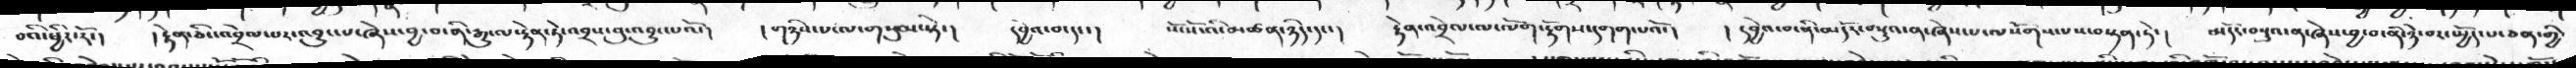བའི་ཕྱིར་རོ་།  ། རྟེན་ཅིང་འབྲེལ་པར་འབྱུང་པ་ཞེས་བྱ་བ་ནི་རྒྱུ་ལ་རྟེན་ཏེ་འབྲས་བུ་འབྱུང་པའོ་།  ། གཉིས་པ་ལ་གསུམ་སྟེ་།  དབྱེའ་བ་དང་།  སོ་སོའི་མཚན་ཉིད་དང་།  རྟེན་འབྲེལ་ལ་ལོག་རྟོགས་དགག་པའོ་།  ད དབྱེའ་བ་ནི་མདོར་བསྡུའ་ན་ཞེས་པ་ལསོགས་པས་བསྟན་ཏེ་།  མདོར་བསྡུའ་ན་ཞེས་བྱ་བ་ནི་ཉེ་བར་སྤྱོད་པ་ཅན་གྱི་
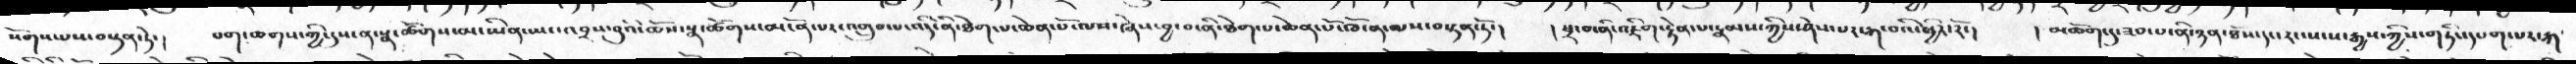སོགས་པས་བསྟན་ཏེ་།  བག་ཆགས་ཀྱི་དུས་ན་སྣ་ཚོགས་མ་ཡིན་ཡང་འབྲས་བུའི་ཆོས་སྣ་ཚོགས་མངོན་པར་འགྲུབ་པ་འདི་ནི་ཐེག་པ་ཆེན་པོ་ལས་ཞེས་བྱ་བ་ནི་ཐེག་པ་ཆེན་པོ་ཁོ་ན་ལས་བསྟན་ཏོ་།  །སྲ་བ་ནི་འཇིག་རྟེན་པ་རྣམས་ཀྱིས་ཤེས་པར་རྐ་བའི་ཕྱིར་རོ་།  །མཆོག་དུ་ཟབ་པ་ནི་ཉན་ཐོས་དང་རང་སངས་རྒྱས་ཀྱིས་གཏིང་དཔག་པར་རྐ
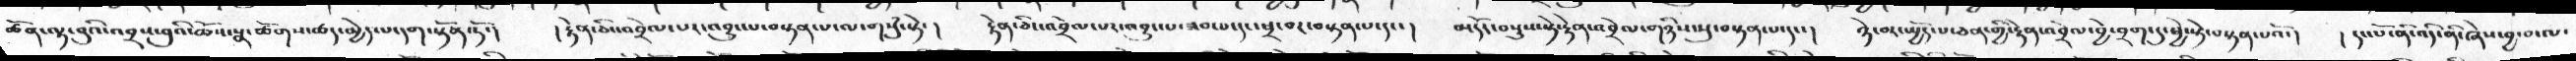ཚོན་ལྟ་བུའི་འབྲས་བུའི་ཆོས་སྣ་ཚོགས་ཚད་མྱེད་པ་དག་སྟོན་ཏོ་།   །རྟེན་ཅིང་འབྲེལ་པར་འབྱུང་པ་བསྟན་པ་ལ་གསུམ་སྟེ་།  རྟེན་ཅིང་འབྲེལ་པར་འབྱུང་པ་ཟབ་པ་དང་སྲ་བར་བསྟན་པ་དང་།  མདོར་བསྡུས་སྟེ་རྟེན་འབྲེལ་གཉིས་སུ་བསྟན་པ་དང་།  ཉེ་བར་སྤྱོད་པ་ཅན་གྱི་རྟེན་འབྲེལ་བྱེ་བྲག་དུ་ཕྱེ་སྟེ་བསྟན་པའོ་།  །དང་པོ་ནི་འདི་ནི་ཞེས་བྱ་བ་ལ་
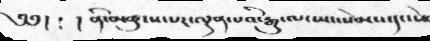༄༅།  ༴  ། ནི་མཚུངས་པར་ལྡན་པའི་རྒྱུ་ལ་ཡང་སེམས་དང་སེ
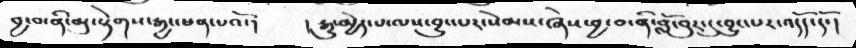བྱ་བ་ནི་མུ་སྟེགས་རྒྱང་ཕན་པའོ་།  །རྒྱུ་མྱེད་པ་ལས་བྱུང་པར་སེམས་ཞེས་བྱ་བ་ནི་བློ་བུར་དུ་བྱུང་པར་འདོད་དོ་།
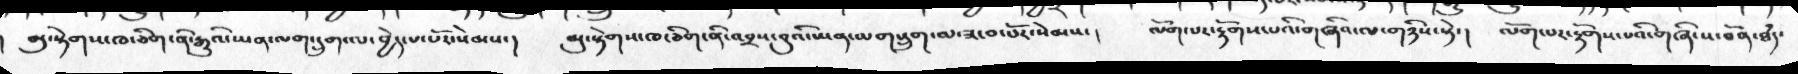མུ་སྟེགས་ཁ་ཅིག་ནི་རྒྱུའི་ཡན་ལག་དྲུག་པ་བྱེད་པ་པོར་སེམས་།  མུ་སྟེགས་ཁ་ཅིག་ནི་འབྲས་བུའི་ཡན་ལག་དྲུག་ལ་ཟ་བ་པོར་སེམས་།  ལོག་པར་རྟོགས་པའི་གཞིའ་ལ་གཉིས་སྟེ་།  ལོག་པར་རྟོགས་པའི་གཞི་ས་བོན་ཐཾད་
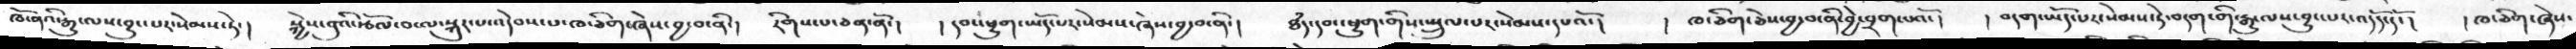ཁོ་ནའི་རྒྱུ་ལས་བྱུང་པར་སེམས་ཏེ་།  སྐྱེས་བུའི་རྩོལ་བ་ལ་སྐུར་པ་འདེབས་པ་ཁ་ཅིག་ཞེས་བྱ་བ་ནི་།  རིགས་པ་ཅན་ནོ་།  །དབང་ཕྱུག་ཡོད་པར་སེམས་ཞེས་བྱ་བ་ནི་།  ཐཾད་དབང་ཕྱུག་གིས་སྤྲུལ་པར་སེམས་དཔའོ་།     ། ཁ་ཅིག་ཅེས་བྱ་བ་ནི་བྱེ་བྲག་པའོ་།   །བདག་ཡོད་པར་སེམས་ཏེ་བདག་གི་རྒྱུ་ལས་བྱུང་པར་འདོད་དོ་།   །ཁ་ཅིག་ཞེས་
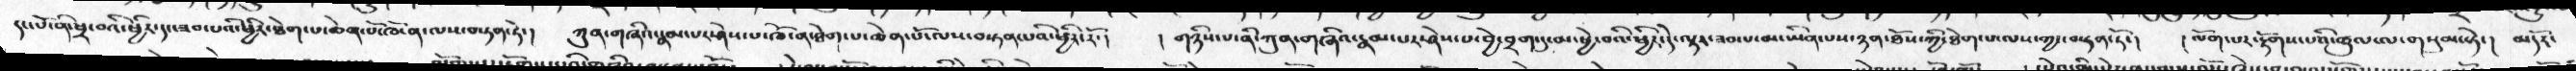དང་པོ་ནི་ཕྲ་བའི་ཕྱིར་དང་ཟབ་པའི་ཕྱིར་ཐེག་པ་ཆེན་པོ་ཁོ་ན་ལས་བསྟན་ཏེ་།   ཀུན་གཞིའ་རྣམ་པར་ཤེས་པ་ཁོ་ན་ཐེག་པ་ཆེན་པོ་ལས་བསྟན་པའི་ཕྱིར་རོ་།   །གཉིས་པ་ནི་ཀུན་གཞིའ་རྣམ་པར་ཤེས་པ་བྱེ་བྲག་དུ་མ་ཕྱེ་བའི་ཕྱིར་དེ་ལྟར་ཟབ་པ་མ་ཡིན་པས་ཉན་ཐོས་ཀྱི་ཐེག་པ་ལས་ཀྱང་བསྟན་ཏོ་།   །ལོག་པར་རྟོགས་པའི་ཚུལ་ལ་གསུམ་སྟེ་།  མདོར་
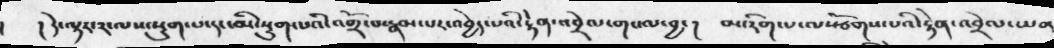།  །དེ་ལྟར་༢་ལས་སྡུག་པ་དང་མི་སྡུག་པའི་འགྲོ་བ་རྣམ་པར་འབྱེད་པའི་རྟེན་འབྲེལ་གང་ལ་བྱ་།  མ་རིག་པ་ལསོགས་པའི་རྟེན་འབྲེལ་ཡན
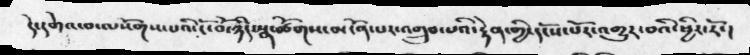དེ་དགེའ་བ་ལསོགས་པའི་ངོ་བོ་ཉིད་སྣ་ཚོགས་མངོན་པར་འགྲུབ་པའི་རྟེན་གྱི་དངོས་པོར་འགྱུར་བའི་ཕྱིར་རོ་།
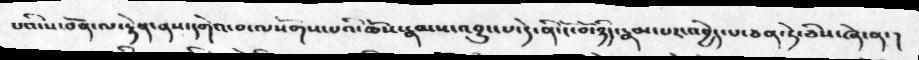པའི་ས་བོན་ལ་རྟེན་ནས་དགེའ་བ་ལསོགས་པའི་ཆོས་རྣམས་འབྱུང་པ་དེ་ནི་ངོ་བོ་ཉིད་རྣམ་པར་འབྱེད་པ་ཅན་ཏེ་ཅིས་ཞེ་ན་།
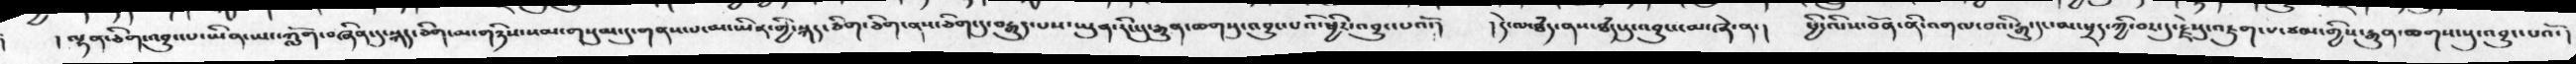།  །ལྷན་ཅིག་འབྱུང་པ་ཡིན་ཡང་ཀློག་བཞིན་དུ་སྐད་ཅིག་མ་གཉིས་སམ་གསུམ་དུ་གནས་པ་མ་ཡིན་གྱི་སྐད་ཅིག་ཅིག་ནས་ཅིག་དུ་བརྒྱུད་པས་ཡུན་རིང་དུ་རྒྱུན་ཆགསུ་འབྱུང་པའི་ཕྱིར་འབྱུང་པའོ་།   །དེ་ལ་ཐཾད་ནས་ཐཾད་དུ་འབྱུང་ངམ་ཞེ་ན་།  ཕྱི་འི་ས་བོན་ནི་འགལ་བའི་རྒྱུ་དང་མ་ཕྲད་ཀྱི་བར་དུ་རྗེསུ་འཇུག་པ་ཙམ་གྱིས་རྒྱུན་ཆགས་སུ་འབྱུང་པའོ་།
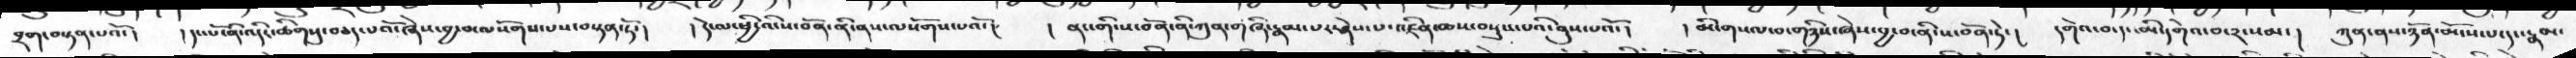བྲག་བསྟན་པའོ་།  །དང་པོ་ནི་འདི་ཚིགསུ་བཅད་པའོ་ཞེས་བྱ་བ་ལསོགས་པས་བསྟན་ཏོ་།  །དེ་ལ་ཕྱི་འི་ས་བོན་ནི་ནས་ལསོགས་པའོ་།   །ནང་གི་ས་བོན་ནི་ཀུན་གཞི་རྣམ་པར་ཤེས་པ་འཛིན་ཆས་བསྡུས་པའི་ནུས་པའོ་།   །མི་གསལ་བ་གཉིས་ཞེས་བྱ་བ་ནི་ས་བོན་ཏེ་།  དགེའ་བ་དང་མི་དགེའ་བ་༢་སམ་།  ཀུན་ནས་ཉོན་མོངས་པ་དང་རྣམ་
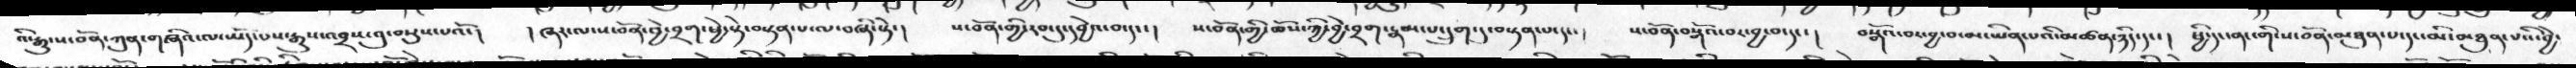འི་རྒྱུ་ས་བོན་ཀུན་གཞིའ་ལ་ཡོད་པས་རྒྱུ་འབྲས་བུ་བསྡུས་པའོ་།  །ཞར་ལ་ས་བོན་བྱེ་བྲག་ཕྱེ་སྟེ་བསྟན་པ་ལ་བཞི་སྟེ་།   ས་བོན་གྱི་རབ་དུ་དབྱེའ་བ་དང་།  ས་བོན་གྱི་ཆོས་ཀྱི་བྱེ་བྲག་རྣམ་པ་དྲུག་དུ་བསྟན་པ་དང་།   ས་བོན་བསྒོའ་བར་བྱ་བ་དང་།  བསྒོའ་བར་བྱ་བ་མ་ཡིན་པའི་མཚན་ཉིད་དང་།  ཕྱི་དང་ནང་གི་ས་བོན་མཐུན་པ་དང་མི་མཐུན་པའི་བྱེ་
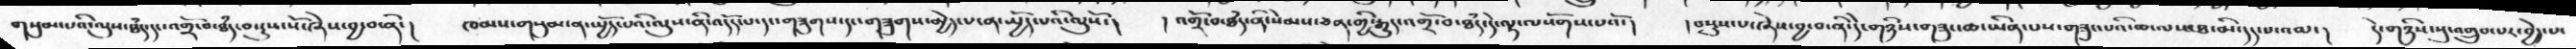གསུམ་པའི་ལུས་ཐཾད་དང་འགྲོ་བ་ཐཾད་བསྡུས་སོ་ཞེས་བྱ་བ་ནི་།   ཁམས་གསུམ་ན་སྤྱོད་པའི་ལུས་ནི་འདོད་པ་དང་གཟུགས་དང་གཟུགས་མྱེད་པ་ན་སྤྱོད་པའི་ལུསོ་།   །འགྲོ་བ་ཐཾད་ནི་སེམས་ཅན་གྱི་རྒྱུད་འགྲོ་བ་ཐཾད་དེ་ལྟ་ལསོགས་པའོ་།  །བསྡུས་པ་ཞེས་བྱ་བ་ནི་དེ་གཉིས་གཟུང་ཆ་ཡིན་པས་གཟུང་པའི་ཆ་ལས་ཐ་མི་དད་པ་འམ་།  དེ་གཉིས་སུ་འགྲུབ་པར་བྱེད་པ་
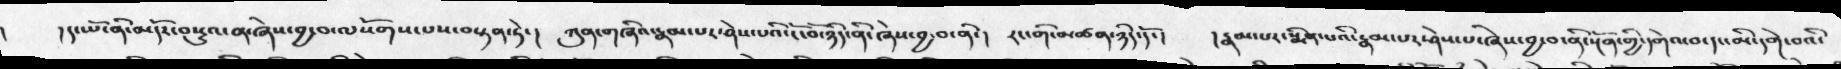།    ། ད་ཡོ་ནི་མདོདར་བསྡུའ་ན་ཞེས་བྱ་བ་ལསོགས་པས་བསྟན་ཏེ་།  ཀུན་གཞིའ་རྣམ་པར་ཤེས་པའི་ངོ་བོ་ཉིད་ནི་ཞེས་བྱ་བ་ནི་།  རང་གི་མཚན་ཉིད་དོ་།   །རྣམ་པར་སྨིན་པའི་རྣམ་པར་ཤེས་པ་ཞེས་བྱ་བ་ནི་སྔོན་གྱི་དགེའ་བ་དང་མི་དགེ་བའི་
